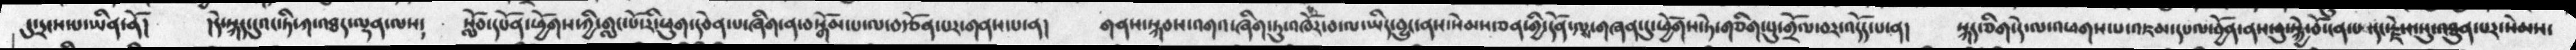དུ་དྲངས་པ་ཡིན་ནོ།   །དེ་སྐད་དུའང་ཏི་ཀ་འཐད་ལྡན་ལས༴   སློབ་དཔོན་ཕྱོགས་ཀྱི་གླང་པོ་རི་ཕུག་དབེན་པ་ཞིག་ན་བསྒོམ་པ་ལ་བརྩོན་པར་གནས་པ་ན།    གནས་སྐབས་འགའ་ཞིག་ཏུ་འཁོར་བ་ལ་ཡིད་བྱུང་ནས་སེམས་ཅན་གྱི་དོན་ལས་གཞན་དུ་ཕྱོགས་ཏེ་གཅིག་པུ་གྲོལ་བར་འདོད་པ་ན།    སྐད་ཅིག་དེ་ལ་འཕགས་པ་འཇམ་དཔལ་བྱོན་ནས་བུ་སྐྱེ་བོ་ངན་པ་དང་རྗེས་སུ་འཐུན་པར་སེམས་
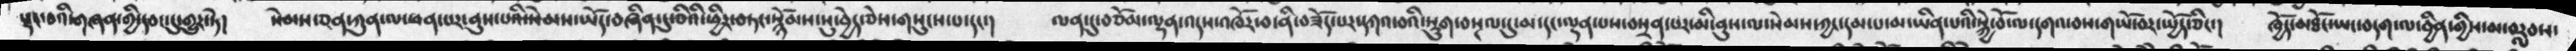སྡང་བའི་གཞན་གྱི་དབང་དུ་གྱུར་ཏེ།   སེམས་ཅན་ཀུན་ལ་ཕན་པར་ནུས་པའི་སེམས་ཡོད་བཞིན་དུ་ཅིའི་ཕྱིར་བཏང་སྙོམས་སུ་བྱེད་ཅེས་གསུངས་པ་དང་།   ལན་དུ་བཅོམ་ལྡན་འདས་འཁོར་བ་ནི་བཟོད་པར་དཀའ་བའི་སྡུག་བསྔལ་དུ་མ་དང་ལྡན་པས་བསྲན་པར་མི་ནུས་ལ་སེམས་ཀྱང་དམ་པ་མ་ཡིན་པའི་སྐྱེ་བོ་ལ་དགའ་བས་གཡོ་བར་སྤྱོད་ཅིང་།   ཁྱོད་མཐོང་ཡང་བདག་ལ་བྱིན་གྱིས་མ་བརླབས་
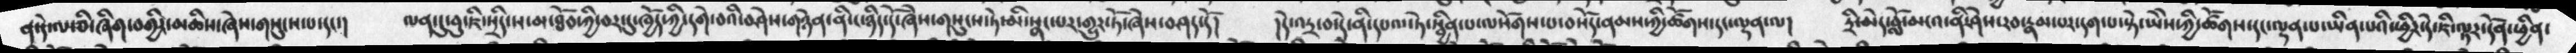ན་དེ་ལ་ཅི་ཞིག་བགྱིར་མཆིས་ཞེས་གསུངས་པ་དང་་།    ལན་དུ་བུ་ཇི་སྲིད་ས་མ་ཐོབ་ཀྱི་བར་དུ་ཁྱོད་ཀྱི་དགེ་བའི་བཤེས་གཉེན་ནི་ང་ཉིད་དོ་ཞེས་གསུངས་ཏེ་མི་སྣང་པར་གྱུར་ཏོ་ཞེས་བཤད་དོ།   །དེ་འདྲ་བ་དེ་ནི་དཔལ་ཏེ་སྦྱིན་པ་ལསོགས་པ་བསོད་ནམས་ཀྱི་ཚོགས་དང་ལྡན་ལ།    དྲི་མེད་བློ་མངའ་ནི་ཤེས་རབ་རྣམ་པར་དག་པ་སྟེ་ཡཻས་ཀྱི་ཚོགས་དང་ལྡན་པ་ཡིན་པའི་ཕྱིར་དེ་ཇི་ལྟར་དོན་ཕྱིན་
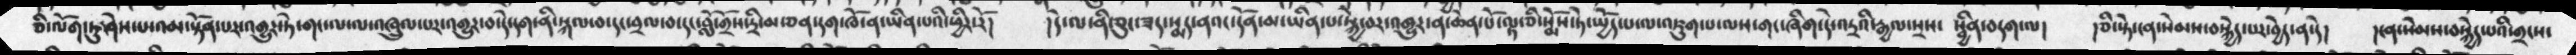ཅི་ལོག་ཏུ་ཤེས་པ་འམ་སྟོན་པར་འགྱུར་ཏེ་གང་ལ་ལ་འཁྲུལ་པར་འགྱུར་བ་དེ་དག་ནི་སྐལ་བ་དང་བྲལ་བ་དང་བློ་གྲོས་དྲི་མ་ཅན་དག་ཁོ་ན་ཡིན་པའི་ཕྱིར་རོ།   །དེ་ལ་ནི་ཅུང་ཟད་སྨད་ནའང་དོན་མ་ཡིན་པ་སྐྱེ་བར་འགྱུར་ན་ཆེན་པོ་ལྟ་ཅི་སྨོས་ཏེ་སྤྱོད་པ་ལ་འཇུག་པ་ལས་གང་ཞིག་དེ་འདྲའི་རྒྱལ་སྲས་  སྦྱིན་བདག་ལ།   །ཅི་སྟེ་ངན་སེམས་བསྐྱེད་པར་བྱེད་ན་དེ།   །ངན་སེམས་བསྐྱེད་པའི་གྲངསས་
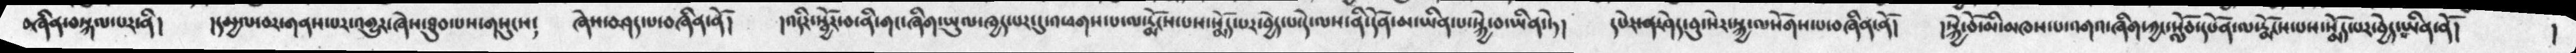བཞིན་བསྐལ་པར་ནི།   །དམྱལ་བར་གནས་པར་འགྱུར་ཞེས་ཐུབ་པས་གསུངས༴   ཞེས་བཤད་པ་བཞིན་ནོ།   །འདིར་སྦྱོར་བ་ནི་གང་ཞིག་ཡུལ་ཁྱད་པར་དུ་འཕགས་པ་ལ་རྨོངས་པས་སྨོད་པས་སྨོད་པར་བྱེད་པ་དེ་ལས་ནི་དོན་མ་ཡིན་པ་སྐྱེ་བ་ཡིན་ཏེ།  དཔེར་ན་ཤེད་བུ་སེར་སྐྱ་ལསོག་པ་བཞིན་ནོ།   །སྐྱེ་བོ་མི་མཁས་པ་འགའ་ཞིག་ཀྱང་སློབ་དཔོན་ལ་རྨོངས་པས་སྨོད་པར་བྱེད་ཡིན་ནོ།    །
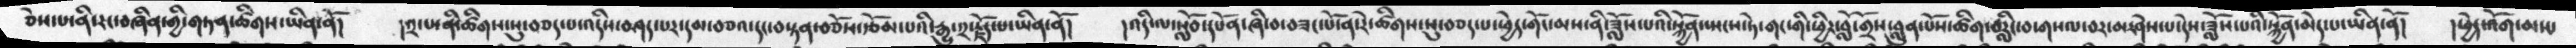ཅེས་པ་ནི་རང་བཞིན་གྱི་གཏན་ཚིགས་ཡིན་ནོ།   །༢་པ་ནི་ཚིགས་སུ་བཅད་པ་འདིས་བཤད་པར་དམ་བཅའ་དང་བསྟན་བཅོས་རྩོམ་པའི་རྒྱུ་༢་རྗོད་པ་ཡིན་ནོ།   །འདི་ལ་སློབ་དཔོན་ཞི་བ་བཟང་པོ་ན་རེ་ཚིགས་སུ་བཅད་པ་ཕྱེད་གོང་མས་ནི་ཟློས་པའི་སྐྱོན་སྤངས་ཏེ་གང་གི་ཕྱིར་བློ་གྲོས་བླུན་པོས་ཚིག་བརླིང་བ་གསལ་བར་མ་ཤེས་པ་དེས་ཟློས་པའི་སྐྱོན་མེད་པ་ཡིན་ནོ།   །ཕྱེད་འོག་མས་
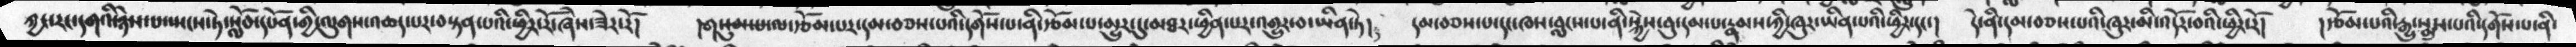ཀྱང་རང་དགའི་ཉེས་པ་སྤངས་ཏེ་སློབ་དཔོན་གྱི་ལུགས་འཆད་པར་བསྟན་པའི་ཕྱིར་རོ་ཞེས་ཟེར་རོ།  །གསུམ་པ་ལ་རྩོམ་པར་དམ་བཅས་པའི་དགོས་པ་ནི་རྩོམ་པ་མྱུར་དུ་མཐར་ཕྱིན་པར་འགྱུར་བ་ཡིན་ཏེ།  དམ་བཅས་པ་དང་ཁས་བླངས་པ་ནི་སྐྱེས་བུ་དམ་པ་རྣམས་ཀྱི་ཁུར་ཡིན་པའི་ཕྱིར་དང་།  དེ་ནི་དམ་བཅས་པའི་ཁུར་མི་འདོར་བའི་ཕྱིར་རོ།  །རྩོམ་པའི་རྒྱུ་སྨུས་པའི་དགོས་པ་ནི་
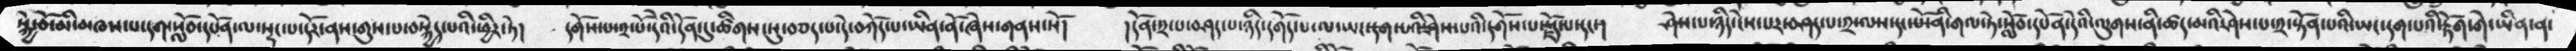སྐྱེ་བོ་མི་མཁས་པ་དག་སློབ་དཔོན་ལ་སྡང་པ་དོར་ནས་གུས་པ་བསྐྱེད་པའི་ཕྱིར་ཏེ།  དགོས་པ་༢་པོ་དོན་དུ་ཚོགས་སུ་བཅད་པ་དེ་བཀོད་པ་ཡིན་ནོ་ཞེས་གནས་སོ།  །དོན་༢་པ་བཤད་པ་ཉིད་དགོད་པ་ལ་ཡང་དག་པའི་ཤེས་པའི་དགོས་པ་རྗོད་པ་དང་།    ཤེས་པ་ཉིད་ངེས་པར་བཤད་པ་༢་ལས་དང་པོ་ནི་གལ་ཏེ་སློབ་དཔོན་དེའི་ལུགས་ནི་ཤེས་པ་༢་སྟོན་པའི་ཡང་དག་པའི་རྟོག་གེ་ཡིན་ན་
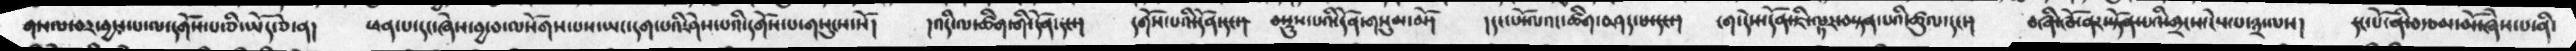གསལ་བར་བྱས་པ་ལ་དགོས་པ་ཅི་ཡོད་ཅེ་ན།  ཕན་པ་དང་ཞེས་བྱ་བ་ལསོགས་པས་ཡང་དག་པའི་ཤེས་པའི་དགོས་པ་གསུངས་སོ།  །འདི་ལ་ཚིག་གི་དོན་དང་།  དགོས་པའི་དོན་དང་།  བསྡུས་པའི་དོན་གསམ་མོ།   །དང་པོ་ལའང་ཚིག་བཤད་པ་དང་།  ངག་དེས་དོན་ཇི་ལྟར་བསྟན་པའི་ཚུལ་དང་།  །བཞི་ཁོ་ནར་སྟོན་པའི་གྲངས་ངེས་པ་༣་ལས།  དང་པོ་ནི་བརྩམ་མོ་ཞེས་པ་ནི་
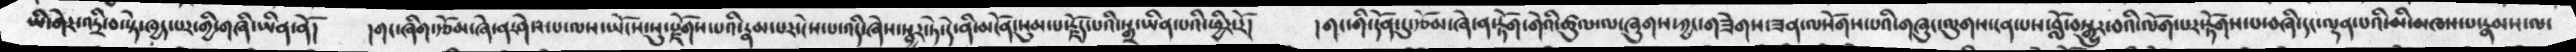ཡི་གེ་འདྲི་བ་སྟེ་ཁྱད་པར་གྱི་གཞི་ཡིན་ནོ།   །གང་ཞིག་རྩོམ་ཞེ་ན་ཤེས་པ་ལས་ཡོངས་སུ་རྫོགས་པའི་རྣམ་པར་ངེས་པ་འདི་ཞེས་སྦྱར་ཏེ་དེ་ནི་མངོན་སུམ་པ་རྗོད་པའི་སྒྲ་ཡིན་པའི་ཕྱིར་རོ།   །གང་གི་དོན་དུ་རྩོམ་ཞེ་ན་རྟོག་གེའི་ཚུལ་ལ་ཞུགས་ཀྱང་གཟེགས་ཟན་ལསོགས་པའི་གཞུང་ལུགས་ངན་པས་བློ་བསྒྱུར་བའི་ལོག་པར་རྟོགས་པ་བཞི་དང་ལྡན་པའི་མི་མཁས་པ་རྣམས་ལ་
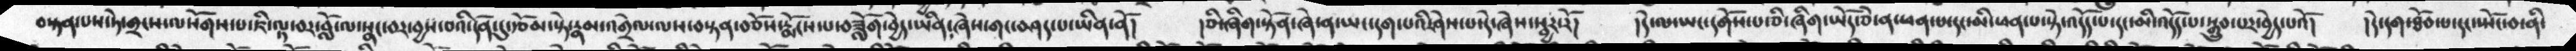བསྟན་པས་ཏེ་གྲངས་ལསོགས་པ་ཇི་ལྟ་བར་བློ་ལ་སྣང་བར་བྱས་བའི་དོན་དུ་རྩོམ་སྟེ་རྣམ་འགྲེལ་ལས་བསྟན་བཅོས་རྨོངས་པ་བཟློག་བྱེད་ཞེས་གང་བཤད་པ་ཡིན་ནོ།   །ཅི་ཞིག་སྟོན་ཞེ་ན་ཡང་དག་པའི་ཤེས་པ་དེ་ཞེས་སྦྱར་རོ།   །དེ་ལ་ཡང་དགོས་པ་ཅི་ཞིག་ཡོད་ཅེ་ན་ཕན་པ་དང་མི་ཕན་པ་སྟེ་འདོད་པ་དང་མི་འདོད་པ་སྒྲུབ་པར་བྱེད་པའོ།   །དེ་དག་ཐོབ་པ་དང་སྤོང་བ་ནི་
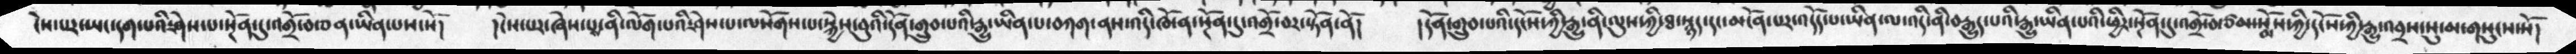ངེས་པར་ཡང་དག་པའི་ཤེས་པ་སྔོན་དུ་འགྲོ་བ་ཅན་ཡིན་པས་སོ།   །ངེས་པར་ཞེས་པས་ནི་ལོག་པའི་ཤེས་པ་ལསོགས་པ་སྐྱེས་བུའི་དོན་གྲུབ་པའི་རྒྱུ་ཡིན་པ་བཀག་ནས་འདི་ཁོ་ན་སྔོན་དུ་འགྲོ་བར་སྟོན་ནོ།   །དོན་གྲུབ་པའི་དངོསཀྱི་རྒྱུ་ནི་ལུས་ཀྱི་ཐ་སྙད་དང་མངོན་པར་འདོད་པ་ཡིན་ལ་འདི་ནི་བརྒྱུད་པའི་རྒྱུ་ཡིན་པའི་ཕྱིར་སྔོན་དུ་འགྲོ་བ་ཙམ་སྨོས་ཀྱི་དངོས་ཀྱི་རྒྱུ་འབྲས་སུ་མ་གསུངས་སོ།
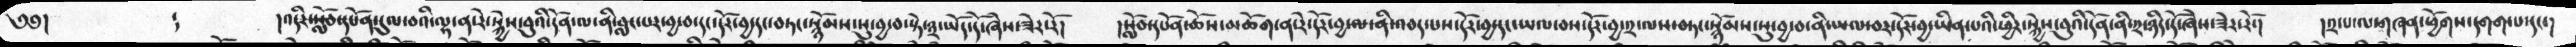༄༅།   ༴    །འདིར་སློབ་དཔོན་དུལ་བའི་ལྷ་ན་རེ་སྐྱེས་བུའི་དོན་ལ་ནི་བླང་པར་བྱ་བ་དང་དོར་བྱ་དང་བཏང་སྙོམས་སུ་བྱ་བ་སྟེ་༣་ཡོད་དོ་ཞེས་ཟེར་རོ།    །སློབ་དཔོན་ཆོས་མཆོག་ན་རེ་དོར་བྱ་ལ་ནི་འབད་པས་དོར་བྱ་དང་ཡལ་བས་དོར་བྱ་༢་ལས་བཏང་སྙོམས་སུ་བྱ་བ་ནི་ཡལ་བར་དོར་བྱ་ཡིན་པའི་ཕྱིར་སྐྱེས་བུའི་དོན་ནི་༢་ཉིད་དོ་ཞེས་ཟེར་རོ།   །༢་པ་ལ་གཞན་ཕྱོགས་དགག་པ་དང་།
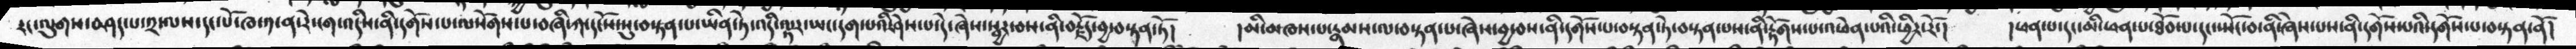རང་ལུགས་བཤད་པ་༢་ལས་དང་པོ་ཁ་༡་ན་རེ་ངག་འདིས་ནི་དགོས་པ་ལསོགས་པ་བཞི་ཀ་དངོས་སུ་བསྟན་པཡིན་ཏེ་འདི་ལྟར་ཡང་དག་པའི་ཤེས་པ་དེ་ཞེས་སྦྱར་བས་བརྗོད་བྱ་བསྟན་ཏོ།    །མི་མཁས་པ་རྣམས་ལ་བསྟན་པ་ཞེས་བྱ་བས་ནི་དགོས་པ་བསྟན་ཏེ་བསྟན་པས་ནི་རྟོགས་པ་འཕེན་པའི་ཕྱིར་རོ་།   །ཕན་པ་དང་མི་ཕན་པ་ཐོབ་པ་དང་སྤོང་བ་ནི་ཞེས་པས་ནི་དགོས་པའི་དགོས་པ་བསྟན་ནོ།
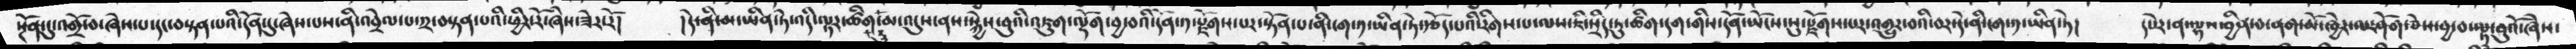སྔོན་དུ་འགྲོ་བ་ཞེས་པ་དང་བསྟན་པའི་དོན་དུ་ཞེས་པས་ནི་འབྲེལ་པ་༢་བསྟན་པའི་ཕྱིར་རོ་ཟེར་རོ།   །དེ་ནི་མ་ཡིན་ཏེ་འདི་ལྟར་ཚིག་མ་འདུས་ནས་སྐྱེས་བུའི་འཇུག་ལྡོག་བྱ་བའི་དོན་༡་རྫོགས་པར་སྟོན་པ་ནི་ངག་༡་ཡིན་ཏེ་རྩོད་པའི་རིགས་པ་ལས་ཇི་སྲིད་ཏུ་ཚིག་དག་གིས་དོན་ཡོངས་སུ་རྫོགས་པར་འགྱུར་བའི་བར་དེ་ནི་ངག་༡་ཡིན་ཏེ།   དཔེར་ན་ལྷས་བྱིན་བ་ནག་མོ་ཁྱེར་ལ་ཤོག་ཅེས་བྱ་བ་ལྟ་བུའོ་ཞེས་
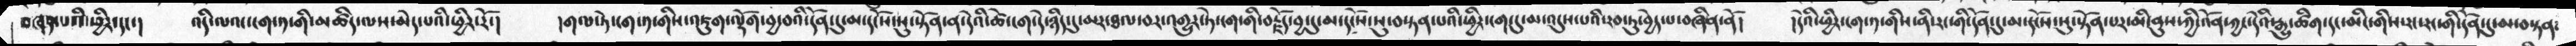བཞན་པའི་ཕྱིར་དང་།   འདི་ལའང་ངག་༡་གི་མཚིད་ལས་མེད་པའི་ཕྱིར་རོ་།   །གལ་ཏེ་ངག་༡་གིས་འཇུག་ལྡོག་བྱ་བའི་དོན་དུ་མ་དངོས་སུ་སྟོན་ན་དེའི་ཚེ་ངག་དེ་ཉིད་དུ་མར་ཐལ་བར་འགྱུར་ཏེ་ངག་གི་བརྗོད་བྱ་དུ་མ་དངོས་སུ་བསྟན་པའི་ཕྱིར་ངག་དུ་མ་འདུས་པའི་རབ་ཏུ་བྱེད་པ་བཞིན་ནོ།    །དེའི་ཕྱིར་ངག་༡་གིས་ནི་རང་གི་དོན་དུ་མ་དངོས་སུ་སྟོན་པར་མིངནུས་ཀྱི་འོན་ཀྱང་དེའི་རྒྱུ་ཚིག་དང་མིང་གིས་རང་རང་གི་དོན་དུ་མ་བསྟན་
